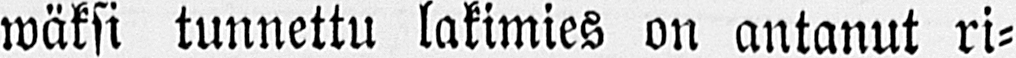wäksi tunnettu lakimies on antanut ri-
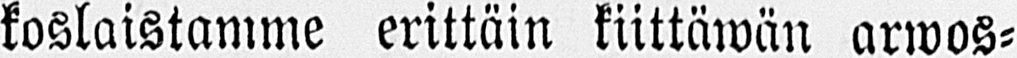koslaistamme erittäin kiittäwän arwos-
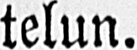telun.
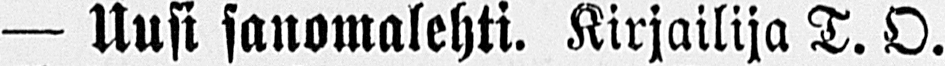— Uusi sanomalehti. Kirjailija T. O.
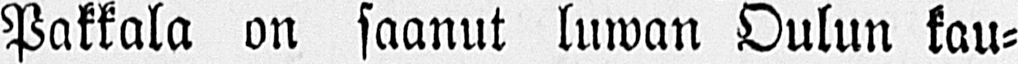Pakkala on saanut luwan Oulun kau-
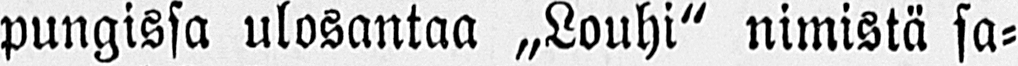pungissa ulosantaa „Louhi" nimistä sa-
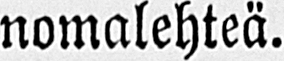nomalehteä.
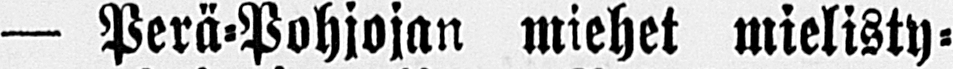— Perä-Pohjojan miehet mielisty-
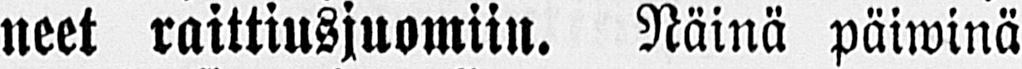neet raittiusjuomiin. Näinä päiwinä
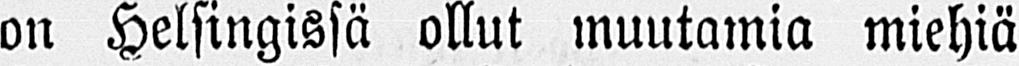on Helsingissä ollut muutamia miehiä
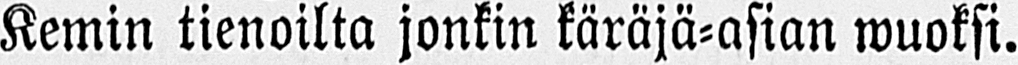Kemin tienoilta jonkin käräjä-asian wuoksi.
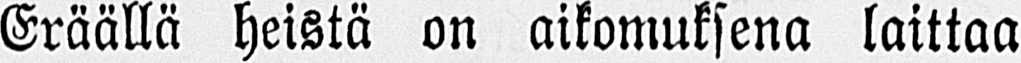Eräällä heistä on aikomuksena laittaa
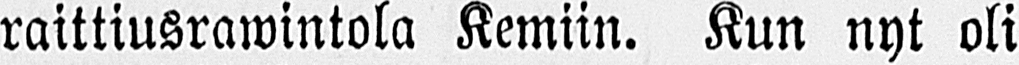raittiusrawintola Kemiin. Kun nyt oli
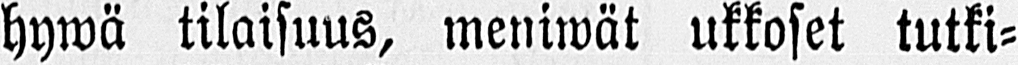hywä tilaisuus, meniwät ukkoset tutki-
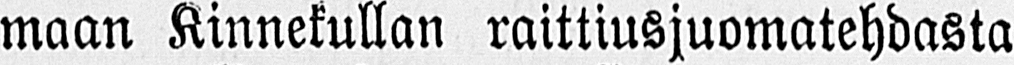maan Kinnekullan raittiusjuomatehdasta
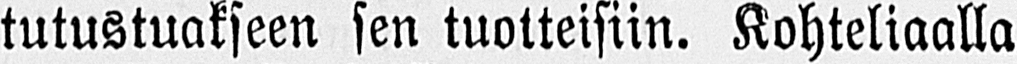tutustuakseen sen tuotteisiin. Kohteliaalla
